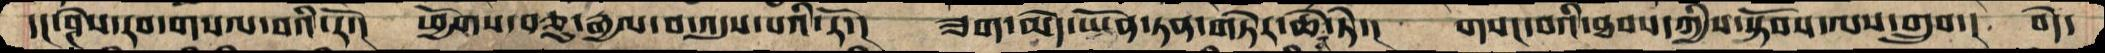དང་ཤེས་རབ་གསལ་བའི་རོ་། ཕྱོགས་བཅུ་རྒྱལ་བ་འདུས་པའིརོ་། ཟག་མེད་ཡོན་ཏན་གཏེར་ཆེན་ཏེ་། གསང་བའི་ཐབས་ཀྱིས་སྟོབས་ལས་གྲུབ་། བདེ་
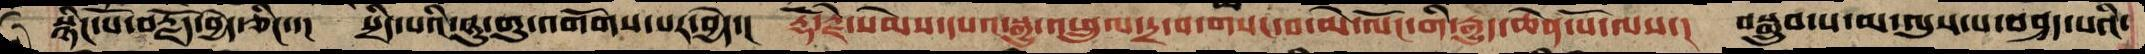སྙིང་པོ་བརྗོད་བྱེད་ཅིང་་།  སྲིད་པའི་ཉུ་གུ་འགོགས་པར་བྱེད་། རྡོ་རྗེ་སེམས་དཔའ་སྒྱུ་འཕྲུལ་དྲ་བ་གསང་བ་མེ་ལོང་གི་རྒྱུད་ཆེན་པོ་ལས་། བསྒྲུབ་པ་མ་ལུས་པ་བཤད་པའི་
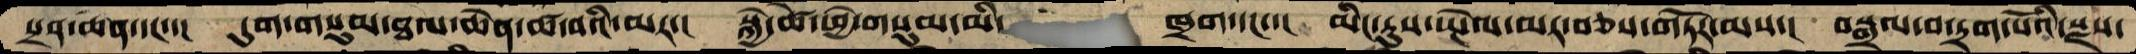པྲན་ཆེན་དང་་།  དུག་གསུམ་ཐལ་ཆེན་ཚ་བའི་མར་།  སྐྱེ་ཚེ་ཕྱེ་གསུམ་མི་   ཁྲག་དང་་།  མིང་རུས་སྤེལ་མར་བཅས་གཏོར་མས་། བསྒྲལ་བ་དྲག་པོའི་སྫས་
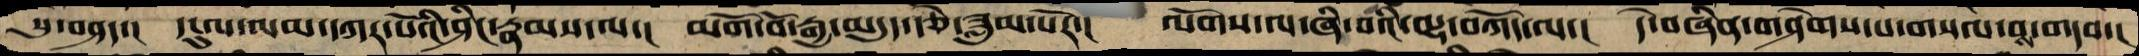སུ་བཤད་།  དངུལ་ལམ་དཀར་པོའི་ཤིང་རྣམས་ལ་། མགོ་བོ་རྒྱ་མདུད་རྩེ་ཟླུམ་པོར་། ལོགས་ལ་ཞི་བའི་ལྷ་བཀོད་ལ་། དེ་བཞིན་གཤེགས་པ་གསལ་བས་གདབ་།
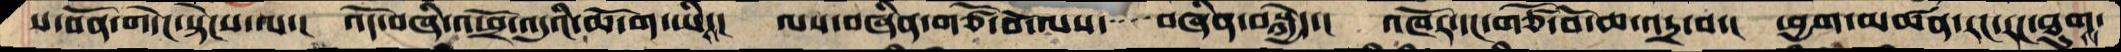ས་བོན་གདེང་སྟེངས་ལ་། འོད་བཞི་འཕྲོ་འདུའི་ཆོ་ག་ཡིས་། ལས་བཞིན་གཙོ་བོ་ལས་་་་བཞིན་བསྐྱེད་། འཁོར་དང་གཙོ་བོ་ཆ་འདྲ་བ་། ཕྱག་མཚན་རང་རང་ཐུགས་
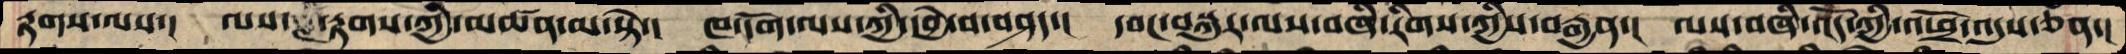རྟགས་ལས་། ལས་རྟགས་ཀྱི་མཚན་མ་སྟེ་། ཁ་དོག་ལས་ཀྱི་དབྱེ་བ་བཤད་། དབང་བསྐུར་ལས་བཞི་རིགས་ཀྱིས་བརྒྱན་། ལས་བཞི་འོད་ཀྱི་འཕྲོ་འདུས་ཅན་།
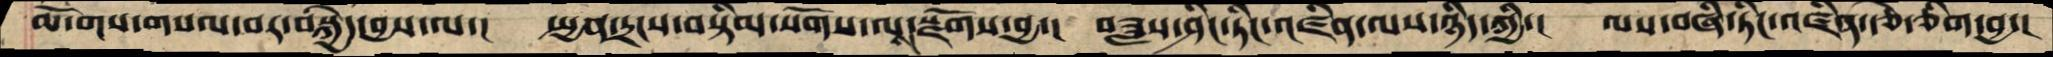མོ་གས་གསལ་བར་བསྐྱེད་བྱས་ལ་། སྤྱན་དྲངས་བསྟིམ་སོགས་ལས་སྫོགས་བྱ་། བཟླས་ཤིང་ཏིང་འཛིན་ལས་ཉིད་ཀྱི་། ལས་བཞི་ཏིང་འཛིན་རྩེ་ཅིག་བྱ་།
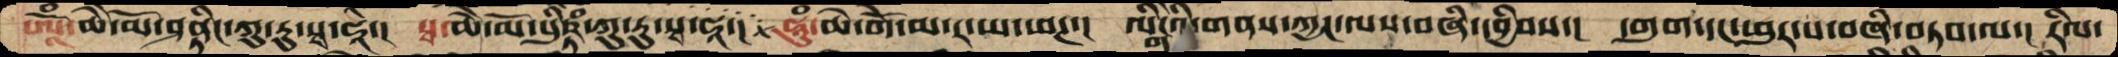ཨཱོཾ་ཆཻ་མོ་ཤནྟིང་ཀུ་རུ་སྭ་ཧཱ་། སྭ་ཆཻ་མོ་པུཥྟིཾ་ཀུ་རུ་སྭ་ཧཱ་། ཧཱུཾ་ཆེ་གེོ་མ་ར་ཡ་ཕཊ་། ལིངྒེའི་གནས་ཀྱང་ལས་བཞི་དབྱིབས་། དགུག་དང་ཕུར་པ་བཞི་བཏབ་ལ་། རིལ་
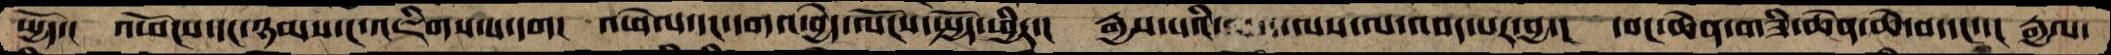སྤྱོད་། འཕོངས་དང་ཉམས་ང་འཇིགས་པ་དག། འཕེལ་དང་དགའ་བྱེད་ལོངས་སྤྱོད་ཕྱིར་། རྒྱས་པའི་   ལས་ལ་འབད་པར་བྱ་། དབང་ཆེན་གཟི་ཆེན་ཆེ་བ་དང་་། རྒྱལ་
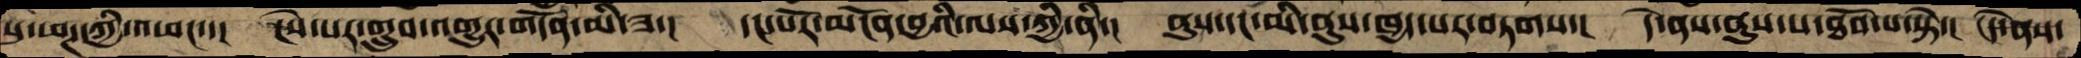སུ་ཕཊ་ཀྱི་འཕང་་། ངེས་པར་གྲུབ་འགྱུར་གདོན་མི་ཟ་། དང་པོར་མངོན་བྱའི་ལས་ཀྱི་ནི་། ནུས་དང་མི་ནུས་ཁྱད་པར་བཏགས་། དེ་ནས་ནུས་པ་ཐོབ་པ་སྟེ་། དེ་ནས་
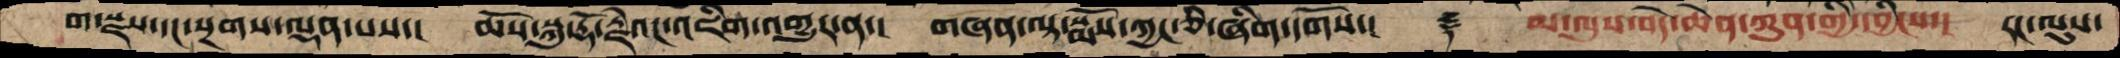ག་སྫས་དང་སྔགས་ལྡན་པས་།  ཆོས་སྐུ་རྡོ་རྗེའང་འཇིག་འགྱུར་ན་། གཞན་ལྟ་སྨོས་ཀྱང་ཅི་ཞིག་དགོས་།   ༈  མ་ལུས་བདེ་ཆེན་ཀུན་གྱི་དབྱིངས་།  རང་ལུས་
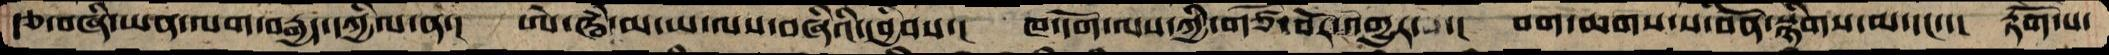རྩ་བཞི་ཡན་ལག་བརྒྱད་དཀྱིལ་ན་། ཨེ་ཝཾ་མ་ཡ་ལས་བཞིའི་དབྱིབས་།  ཁ་དོག་ལས་ཀྱི་གཙོ་བོར་འགྱུར་པ་། བག་ཆགས་ས་བོན་སྙིགས་མ་དང་་།  རྟོག་པ་
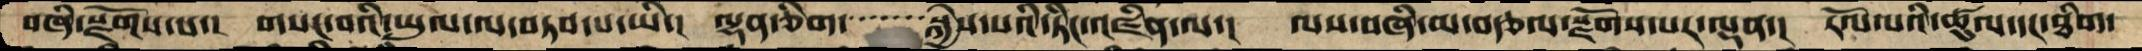བཞི་སྫོགས་པ་།  གསང་བའི་ཡུལ་ལ་བཏབ་པ་ཡི་།  ལྷན་ཅིག་་་་་་་སྐྱེས་པའི་ཏིང་འཛིན་ལ་།  ལས་བཞི་མ་བརྩལ་སྫོགས་པར་ལྡན་།  རོལ་པའི་ཚུལ་དང་ཐིག་
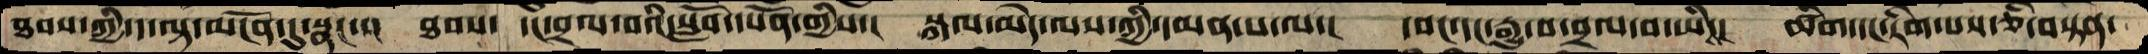ཐབས་ཀྱི་ད་ལྟ་མངོན་དུ་སྣང་་།  ཐབས་ དང་བྲལ་བའི་སློབ་དཔོན་གྱིས་། སྐལ་མེད་ལས་ཀྱི་དམན་པ་ལ་། དབང་དང་རྒྱུ་བ་བྲལ་བ་ཡིས་། ཚིག་དང་རིག་པས་ཅི་བསྟན་
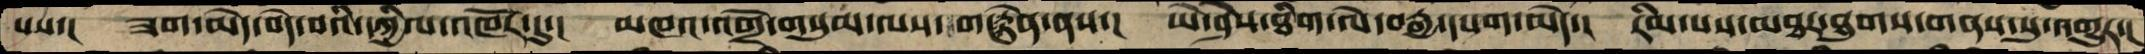པས་། ཟག་མེད་བདེ་བའི་དཀྱིལ་འཁོར་དུ་། མཁའ་འགྲོ་གསུམ་ལས་གང་རྟེན་ནས་། ཡེ་ཤེས་ཐིག་ལེ་བརྒྱ་དཔག་མེད་། རིམ་པས་མཐར་ཐུགས་གནས་སུ་འགྱུར་།
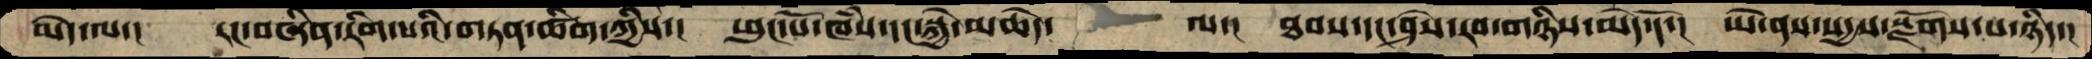མེད་ལ་། རང་བཞིན་རིག་པའི་གཏན་ཚིག་ཀྱིས་། ཕུང་པོ་ཁཾས་དང་སྐྱེ་མཆེད་  ལ་། ཐབས་དང་ཤེས་རབ་གཉིས་མེད་དོ་། ཡེ་ནས་སདྱས་སྫོགས་པ་ཉིད་།
